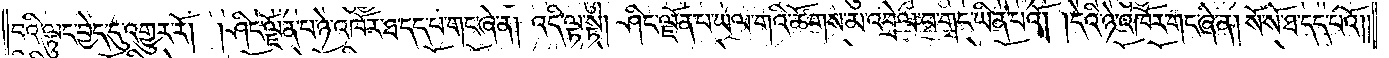བའི་ལྟུང་བྱེད་དུ་འགྱུར་རོ། །ཤིང་ལྗོན་པ་ཉེ་འཁོར་ཐ་དད་པ་གང་ཞེ་ན། འདི་ལྟ་སྟེ། ཤིང་ལྗོན་པ་ཡལ་གའི་ཚོགས་མ་འབྲེལ་བ་གང་ཡིན་པའོ། །དེའི་ཉེ་འཁོར་གང་ཞེ་ན། སོ་སོ་ཐ་དད་པའོ། །
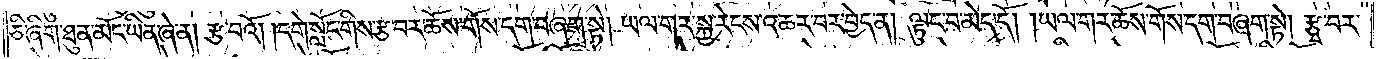ཅི་ཞིག་ཐུན་མོང་ཡིན་ཞེ་ན། རྩ་བའོ། །དགེ་སློང་གིས་རྩ་བར་ཆོས་གོས་དག་བཞག་སྟེ། ཡལ་གར་སྐྱ་རེངས་འཆར་བར་བྱེད་ན། ལྟུང་བ་མེད་དོ། །ཡལ་གར་ཆོས་གོས་དག་བཞག་སྟེ། རྩྭ་བར་
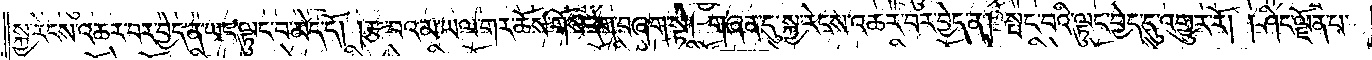སྐྱ་རེངས་འཆར་བར་བྱེད་ན་ཡང་ལྟུང་བ་མེད་དོ། །རྩ་བའམ་ཡལ་གར་ཆོས་གོས་དག་བཞག་སྟེ། གཞན་དུ་སྐྱ་རེངས་འཆར་བར་བྱེད་ན། སྤང་པའི་ལྟུང་བྱེད་དུ་འགྱུར་རོ། །ཤིང་ལྗོན་པ་
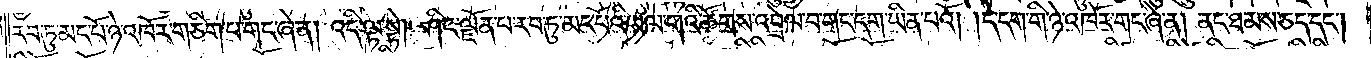རབ་ཏུ་མང་པོ་ཉེ་འཁོར་གཅིག་པ་གང་ཞེ་ན། འདི་ལྟ་སྟེ། ཤིང་ལྗོན་པ་རབ་ཏུ་མང་པོའི་ཡལ་གའི་ཚོགས་འབྲེལ་བ་གང་དག་ཡིན་པའོ། །དེ་དག་གི་ཉེ་འཁོར་གང་ཞེ་ན། ནང་ཐམས་ཅད་དང༌།
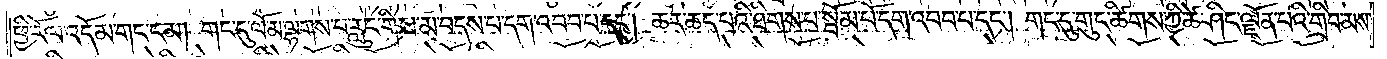ཕྱི་རོལ་འདོམ་གང་ངམ། གང་དུ་ལོ་མ་ལྷགས་པ་རླུང་གིས་མ་བདས་པ་དག་འབབ་པ་དང༌། ཆར་ཆད་པའི་ཐིགས་པ་སྤོམ་པོ་དག་འབབ་པ་དང༌། གང་དུ་གུང་ཚིགས་ཀྱི་ཚེ་ཤིང་ལྗོན་པའི་གྲིབ་མས་
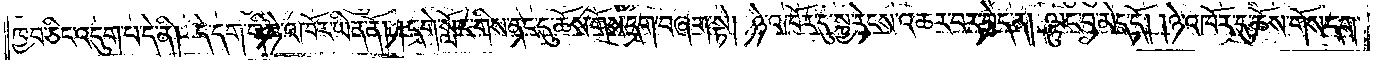ཁྱབ་ཅིང་འདུག་པ་དེ་ནི། དེ་དག་གི་ཉེ་འཁོར་ཡིན་ནོ། །དགེ་སློང་གིས་ནང་དུ་ཆོས་གོས་དག་བཞག་སྟེ། ཉེ་འཁོར་དུ་སྐྱ་རེངས་འཆར་བར་བྱེད་ན། ལྟུང་བ་མེད་དོ། །ཉེ་འཁོར་དུ་ཆོས་གོས་དག་
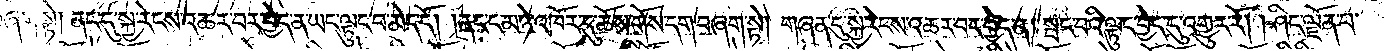བཞག་སྟེ། ནང་དུ་སྐྱ་རེངས་འཆར་བར་བྱེད་ན་ཡང་ལྟུང་བ་མེད་དོ། །ནང་ངམ་ཉེ་འཁོར་དུ་ཆོས་གོས་དག་བཞག་སྟེ། གཞན་དུ་སྐྱ་རེངས་འཆར་བར་བྱེད་ན། སྤང་བའི་ལྟུང་བྱེད་དུ་འགྱུར་རོ། །ཤིང་ལྗོན་པ་
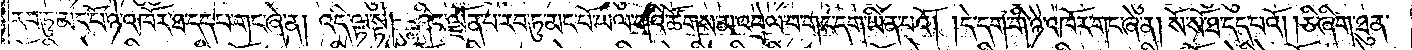རབ་ཏུ་མང་པོ་ཉེ་འཁོར་ཐ་དད་པ་གང་ཞེ་ན། འདི་ལྟ་སྟེ། ཤིང་ལྗོན་པ་རབ་ཏུ་མང་པོ་ཡལ་གའི་ཚོགས་མ་འབྲེལ་བ་གང་དག་ཡིན་པའོ། །དེ་དག་གི་ཉེ་འཁོར་གང་ཞེ་ན། སོ་སོ་ཐ་དད་པའོ། །ཅི་ཞིག་ཐུན་
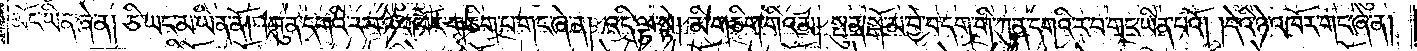མོང་ཡིན་ཞེ་ན། ཅི་ཡང་མ་ཡིན་ནོ། །ཀུན་དགའི་ར་བ་ཉེ་འཁོར་གཅིག་པ་གང་ཞེ་ན། འདི་ལྟ་སྟེ། མི་གཅིག་གིའམ། སྤུན་སྒོ་མ་བྱེ་བ་དག་གི་ཀུན་དགའི་ར་བ་གང་ཡིན་པའོ། །དེའི་ཉེ་འཁོར་གང་ཞེ་ན།
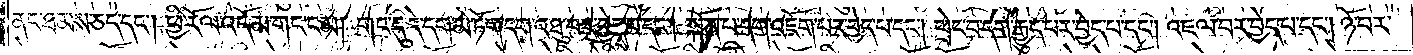ནང་ཐམས་ཅད་དང༌། ཕྱི་རོལ་འདོམ་གང་ངམ། གང་དུ་དེ་དག་མེ་ཏོག་དག་འཐུ་བར་བྱེད་པ་དང༌། སྐོན་པ་དག་འཇོག་པར་བྱེད་པ་དང༌། ཕྲེང་བ་དག་རྒྱུད་པར་བྱེད་པ་དང༌། འཇལ་བར་བྱེད་པ་དང༌། ཉོ་བར་
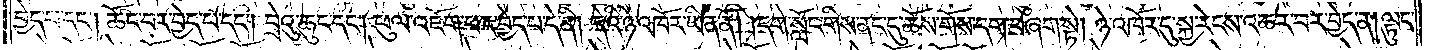བྱེད་པ་དང༌། ཚོང་བར་བྱེད་པ་དང༌། བྲེའུ་ཆུང་དང༌། ཕུལ་འཇོག་པར་བྱེད་པ་དེ་ནི། དེའི་ཉེ་འཁོར་ཡིན་ནོ། །དགེ་སློང་གིས་ནང་དུ་ཆོས་གོས་དག་བཞག་སྟེ། ཉེ་འཁོར་དུ་སྐྱ་རེངས་འཆར་བར་བྱེད་ན། ལྟུང་
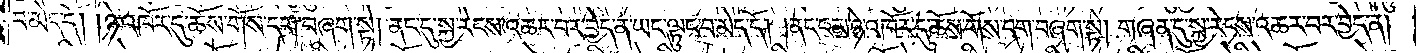བ་མེད་དོ། །ཉེ་འཁོར་དུ་ཆོས་གོས་དག་བཞག་སྟེ། ནང་དུ་སྐྱ་རེངས་འཆར་བར་བྱེད་ན་ཡང་ལྟུང་བ་མེད་དོ། །ནང་ངམ་ཉེ་འཁོར་དུ་ཆོས་གོས་དག་བཞག་སྟེ། གཞན་དུ་སྐྱ་རེངས་འཆར་བར་བྱེད་ན།
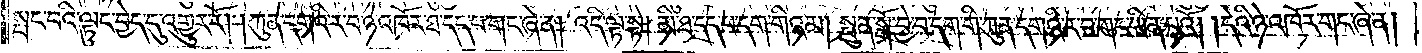སྤང་བའི་ལྟུང་བྱེད་དུ་འགྱུར་རོ། །ཀུན་དགའི་ར་བ་ཉེ་འཁོར་ཐ་དད་པ་གང་ཞེ་ན། འདི་ལྟ་སྟེ། མི་ཐ་དད་པ་དག་གིའམ། སྤུན་སྒོ་བྱེ་བ་དག་གི་ཀུན་དགའི་ར་བ་གང་ཡིན་པའོ། །དེའི་ཉེ་འཁོར་གང་ཞེ་ན།
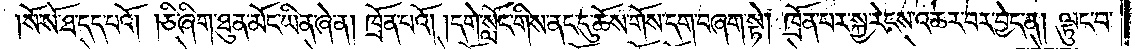སོ་སོ་ཐ་དད་པའོ། །ཅི་ཞིག་ཐུན་མོང་ཡིན་ཞེ་ན། ཁྲོན་པའོ། །དགེ་སློང་གིས་ནང་དུ་ཆོས་གོས་དག་བཞག་སྟེ། ཁྲོན་པར་སྐྱ་རེངས་འཆར་བར་བྱེད་ན། ལྟུང་བ་
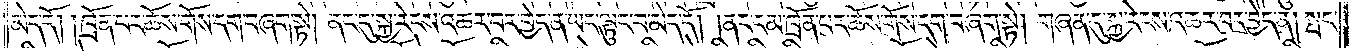མེད་དོ། །ཁྲོན་པར་ཆོས་གོས་དག་བཞག་སྟེ། ནང་དུ་སྐྱ་རེངས་འཆར་བར་བྱེད་ན་ཡང་ལྟུང་བ་མེད་དོ། །ནང་ངམ་ཁྲོན་པར་ཆོས་གོས་དག་བཞག་སྟེ། གཞན་དུ་སྐྱ་རེངས་འཆར་བར་བྱེད་ན། སྤང་
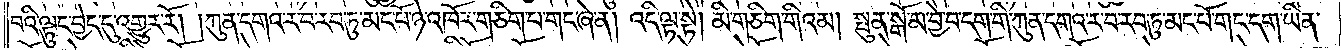བའི་ལྟུང་བྱེད་དུ་འགྱུར་རོ། །ཀུན་དགའ་ར་བ་རབ་ཏུ་མང་པོ་ཉེ་འཁོར་གཅིག་པ་གང་ཞེ་ན། འདི་ལྟ་སྟེ། མི་གཅིག་གིའམ། སྤུན་སྒོ་མ་བྱེ་བ་དག་གི་ཀུན་དགའ་ར་བ་རབ་ཏུ་མང་པོ་གང་དག་ཡིན་
